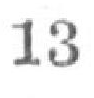13
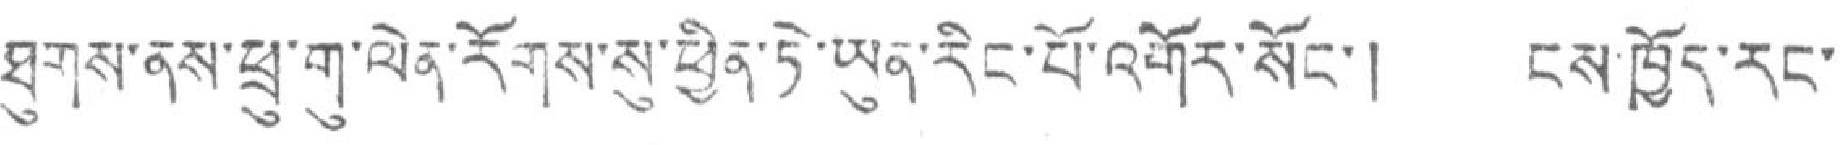ཐུགས་ནས་ཕྲུ་གུ་ལེན་རོགས་སུ་ཕྱིན་ཏེ་ཡུན་རིང་པོ་འགོར་སོང་། ངས་ཁྱོད་རང་
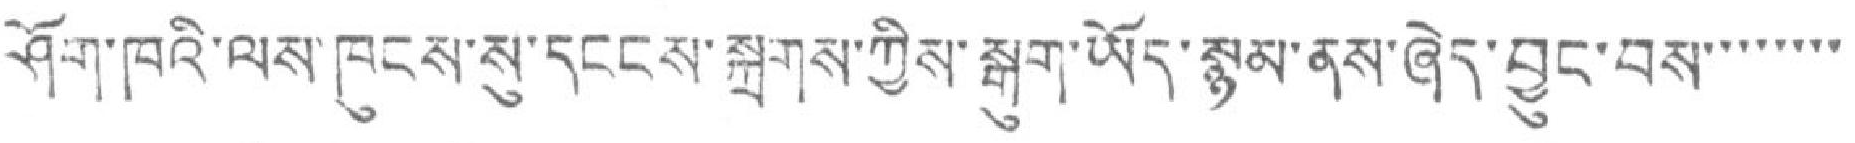ཤོག་ཁའི་ལས་ཁུངས་སུ་དངངས་སྐྲགས་ཀྱིས་སྒུག་ཡོད་སྙམ་ནས་ཞེད་བྱུང་བྱས་་་་་་་་
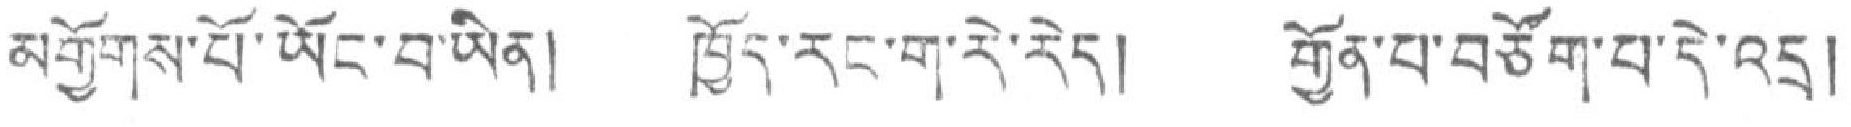མགྱོགས་པོ་ཡོང་བ་ཡིན། ཁྱོར་རང་ག་རེ་རེད། གྱོན་པ་བཙོག་པ་དེ་འདྲ།
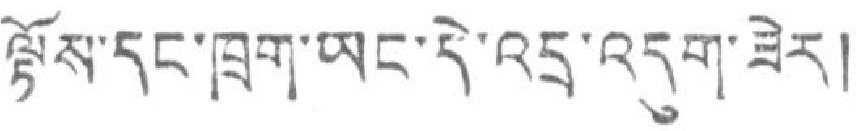ལྟོས་དང་ཁྲག་ཡང་དེ་འདྲ་འདུག་ཟེར།
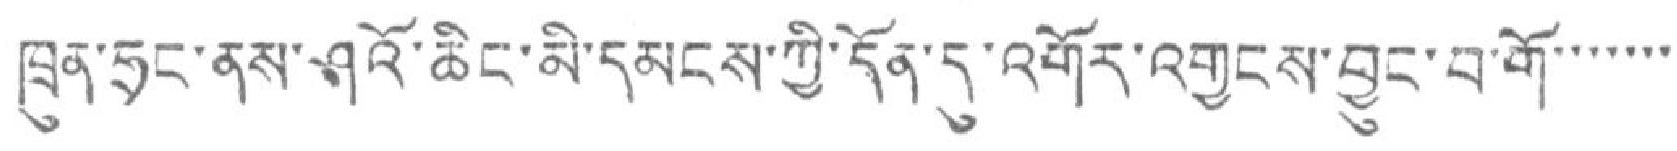ཁྲུན་ཧྲང་ནས་ཤའོ་ཆིང་མི་དམངས་ཀྱི་དོན་དུ་འགོར་འགྱངས་བྱུང་བ་གོ་་་་་་་
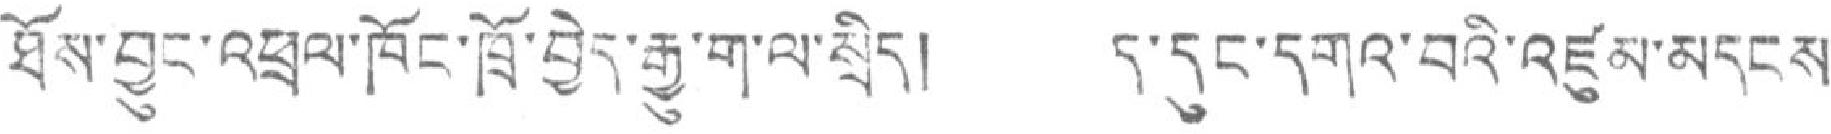ཐོས་བྱུང་འཕྲལ་ཁོང་ཁྲོ་བྱེད་རྒྱུ་ག་ལ་སྲིད། ད་དུང་དགའ་བའི་འཛུམ་མདངས་
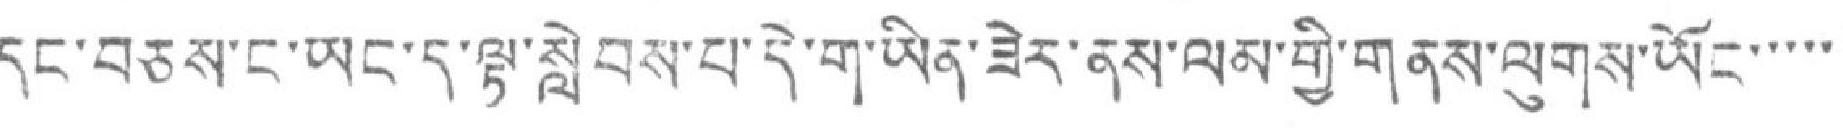དང་བཅས་ང་ཡང་ད་ལྟ་སླེབས་པ་དེ་ག་ཡིན་ཟེར་ནས་ལམ་གྱི་གནས་ལུགས་ཡོང་་་་་
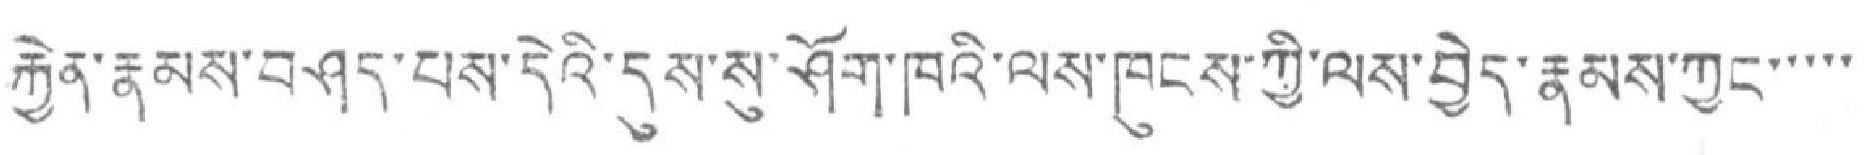རྐྱེན་རྣམས་བཤད་པས་དེའི་དུས་སུ་ཤོག་ཁའི་ལས་ཁུངས་ཀྱི་ལས་བྱེད་རྣམས་ཀྱང་་་་་
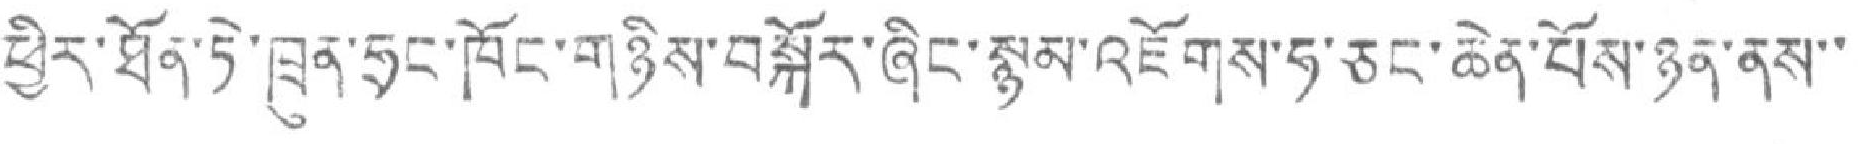ཕྱིར་ཐོན་ཏེ་ཁྲུན་ཧྲང་ཁོང་གཉིས་བསྐོར་ཞིང་སྙམ་འཛོགས་ཧ་ཅང་ཆེན་པོས་ཉན་ནས་་
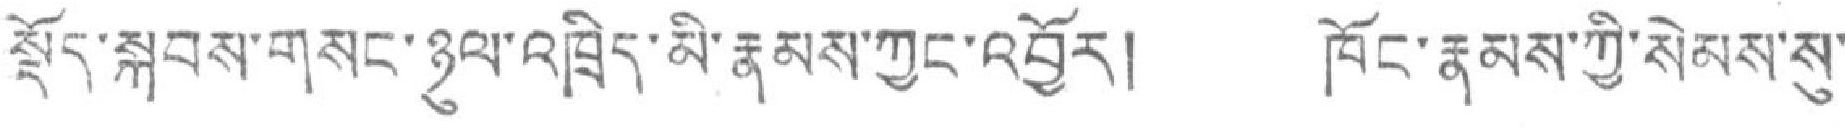སྡོད་སྐབས་གསང་ཉུལ་འཁྲིད་མི་རྣམས་ཀྱང་འབྱོར། ཁོང་རྣམས་ཀྱི་སེམས་སུ་
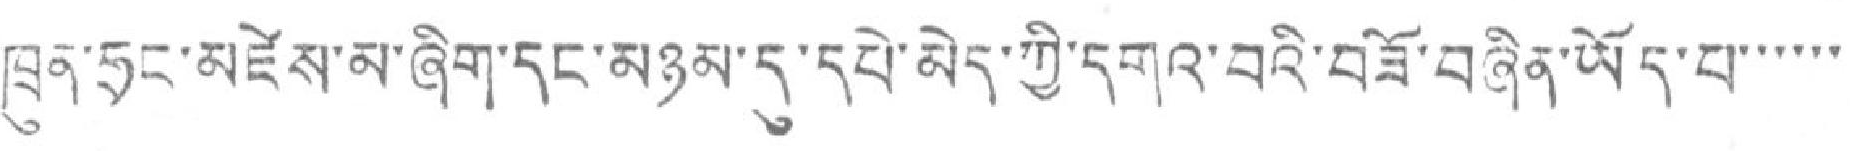ཁྲུན་ཧྲང་མཛེས་མ་ཞིག་དང་མཉམ་དུ་དཔེ་མེད་ཀྱི་དགའ་བའི་བཟོ་བཞིན་ཡོད་པ་་་་་་
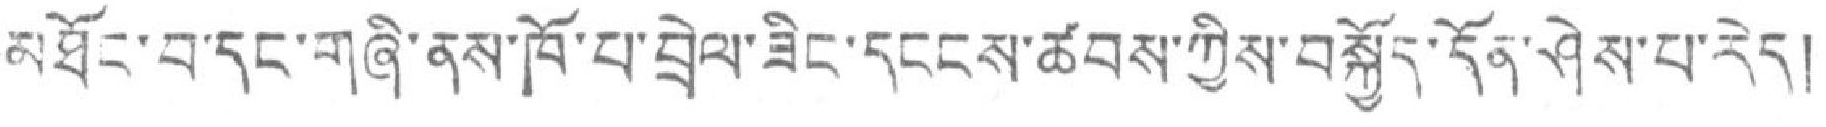མཐོང་བ་དང་གཞི་ནས་ཁོ་པ་བྲེལ་ཟིང་དངངས་ཚབས་ཀྱིས་བསྐྱོད་དོན་ཤེས་པ་རེད།
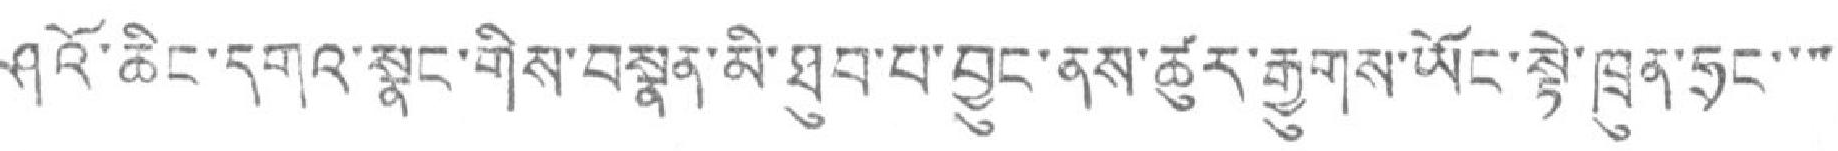ཤའོ་ཆིང་དགའ་སྣང་གིས་བསྣན་མི་ཐུབ་པ་བྱུང་ནས་ཚུར་རྒྱུགས་ཡོང་སྟེ་ཁྲུན་ཧྲང་་་་
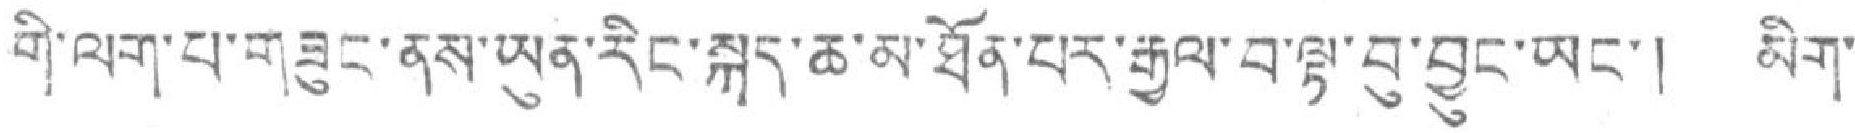གི་ལག་པ་གཟུང་ནས་ཡུན་རིང་སྐད་ཆ་མ་ཐོན་པར་རྒྱལ་བ་ལྟ་བུ་བྱུང་ཡང་། མིག་
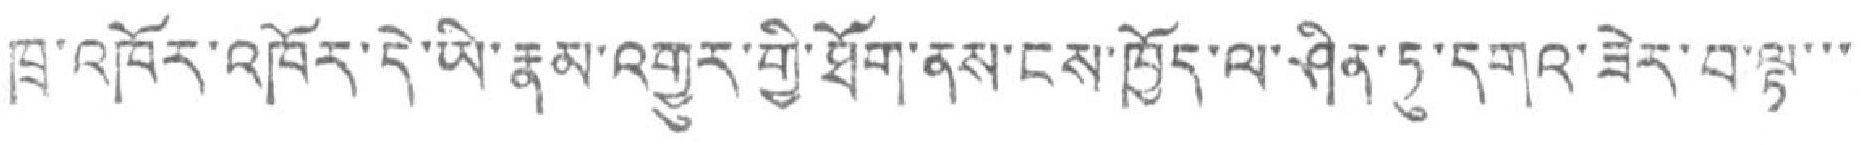ཁྲ་འཁོར་འཁོར་དེ་ཡི་རྣམ་འགྱུར་གྱི་ཐོག་ནས་ངས་ཁྱོད་ལ་ཤིན་ཏུ་དགའ་ཟེར་བ་ལྟ་་་་་
